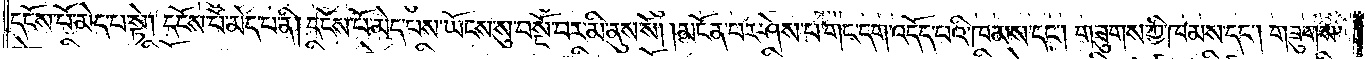དངོས་པོ་མེད་པ་སྟེ། དངོས་པོ་མེད་པ་ནི། དངོས་པོ་མེད་པས་ཡོངས་སུ་བསྔོ་བར་མི་ནུས་སོ། །མངོན་པར་ཤེས་པ་གང་དག་འདོད་པའི་ཁམས་དང༌། གཟུགས་ཀྱི་ཁམས་དང༌། གཟུགས་
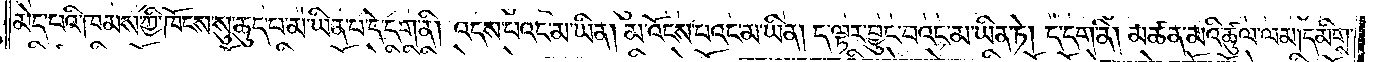མེད་པའི་ཁམས་ཀྱི་ཁོངས་སུ་ཆུད་པ་མ་ཡིན་པ་དེ་དག་ནི། འདས་པའང་མ་ཡིན། མ་འོངས་པའང་མ་ཡིན། ད་ལྟར་བྱུང་བའང་མ་ཡིན་ཏེ། དེ་དག་ནི། མཚན་མའི་ཚུལ་ལམ། དམིགས་
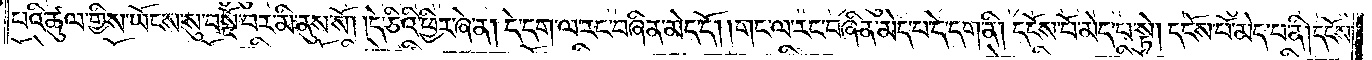པའི་ཚུལ་གྱིས་ཡོངས་སུ་བསྔོ་བར་མི་ནུས་སོ། །དེ་ཅིའི་ཕྱིར་ཞེ་ན། དེ་དག་ལ་རང་བཞིན་མེད་དོ། །གང་ལ་རང་བཞིན་མེད་པ་དེ་དག་ནི། དངོས་པོ་མེད་པ་སྟེ། དངོས་པོ་མེད་པ་ནི། དངོས་
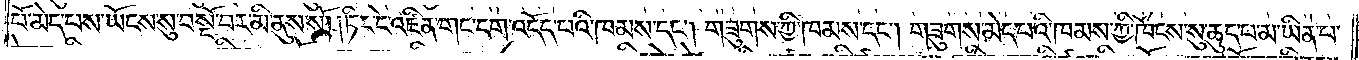པོ་མེད་པས་ཡོངས་སུ་བསྔོ་བར་མི་ནུས་སོ། །ཏིང་ངེ་འཛིན་གང་དག་འདོད་པའི་ཁམས་དང༌། གཟུགས་ཀྱི་ཁམས་དང༌། གཟུགས་མེད་པའི་ཁམས་ཀྱི་ཁོངས་སུ་ཆུད་པ་མ་ཡིན་པ་
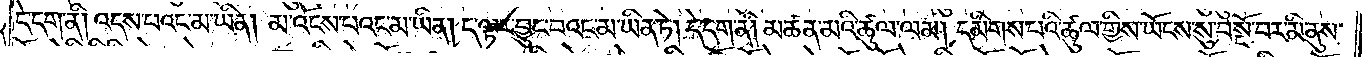དེ་དག་ནི། འདས་པའང་མ་ཡིན། མ་འོངས་པའང་མ་ཡིན། ད་ལྟར་བྱུང་བའང་མ་ཡིན་ཏེ། དེ་དག་ནི། མཚན་མའི་ཚུལ་ལམ། དམིགས་པའི་ཚུལ་གྱིས་ཡོངས་སུ་བསྔོ་བར་མི་ནུས་
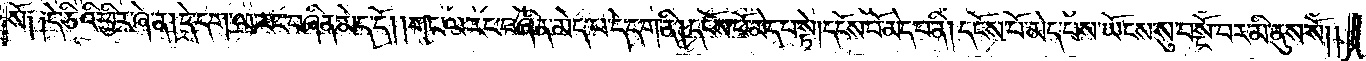སོ༑ ༑དེ་ཅིའི་ཕྱིར་ཞེ་ན། དེ་དག་ལ་རང་བཞིན་མེད་དོ། །གང་ལ་རང་བཞིན་མེད་པ་དེ་དག་ནི། དངོས་པོ་མེད་པ་སྟེ། དངོས་པོ་མེད་པ་ནི། དངོས་པོ་མེད་པས་ཡོངས་སུ་བསྔོ་བར་མི་ནུས་སོ། །
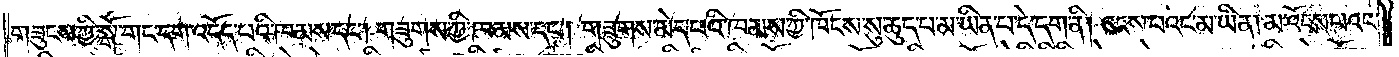གཟུངས་ཀྱི་སྒོ་གང་དག་འདོད་པའི་ཁམས་དང༌། གཟུགས་ཀྱི་ཁམས་དང༌། གཟུགས་མེད་པའི་ཁམས་ཀྱི་ཁོངས་སུ་ཆུད་པ་མ་ཡིན་པ་དེ་དག་ནི། འདས་པའང་མ་ཡིན། མ་འོངས་པའང་
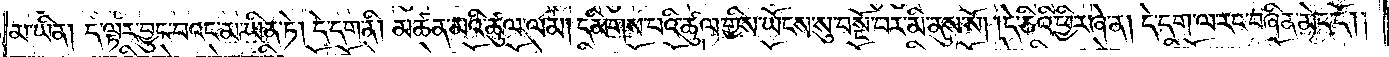མ་ཡིན། ད་ལྟར་བྱུང་བའང་མ་ཡིན་ཏེ། དེ་དག་ནི། མཚན་མའི་ཚུལ་ལམ། དམིགས་པའི་ཚུལ་གྱིས་ཡོངས་སུ་བསྔོ་བར་མི་ནུས་སོ། །དེ་ཅིའི་ཕྱིར་ཞེ་ན། དེ་དག་ལ་རང་བཞིན་མེད་དོ། །
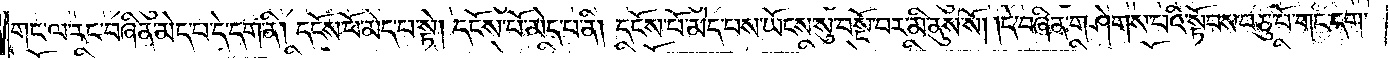གང་ལ་རང་བཞིན་མེད་པ་དེ་དག་ནི། དངོས་པོ་མེད་པ་སྟེ། དངོས་པོ་མེད་པ་ནི། དངོས་པོ་མེད་པས་ཡོངས་སུ་བསྔོ་བར་མི་ནུས་སོ། །དེ་བཞིན་གཤེགས་པའི་སྟོབས་བཅུ་པོ་གང་དག་
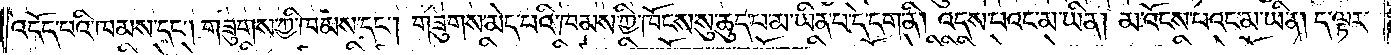འདོད་པའི་ཁམས་དང༌། གཟུགས་ཀྱི་ཁམས་དང༌། གཟུགས་མེད་པའི་ཁམས་ཀྱི་ཁོངས་སུ་ཆུད་པ་མ་ཡིན་པ་དེ་དག་ནི། འདས་པའང་མ་ཡིན། མ་འོངས་པའང་མ་ཡིན། ད་ལྟར་
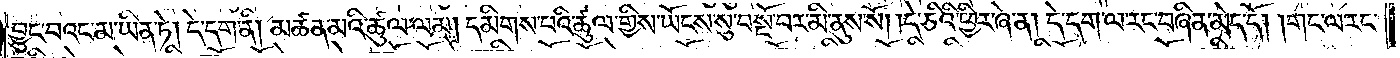བྱུང་བའང་མ་ཡིན་ཏེ། དེ་དག་ནི། མཚན་མའི་ཚུལ་ལམ། དམིགས་པའི་ཚུལ་གྱིས་ཡོངས་སུ་བསྔོ་བར་མི་ནུས་སོ། །དེ་ཅིའི་ཕྱིར་ཞེ་ན། དེ་དག་ལ་རང་བཞིན་མེད་དོ། །གང་ལ་རང་
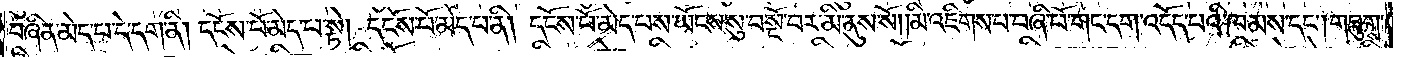བཞིན་མེད་པ་དེ་དག་ནི། དངོས་པོ་མེད་པ་སྟེ། དངོས་པོ་མེད་པ་ནི། དངོས་པོ་མེད་པས་ཡོངས་སུ་བསྔོ་བར་མི་ནུས་སོ། །མི་འཇིགས་པ་བཞི་པོ་གང་དག་འདོད་པའི་ཁམས་དང༌། གཟུགས་
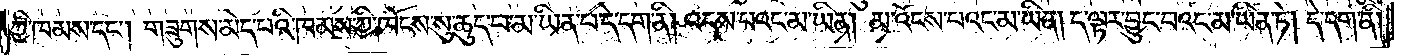ཀྱི་ཁམས་དང༌། གཟུགས་མེད་པའི་ཁམས་ཀྱི་ཁོངས་སུ་ཆུད་པ་མ་ཡིན་པ་དེ་དག་ནི། འདས་པའང་མ་ཡིན། མ་འོངས་པའང་མ་ཡིན། ད་ལྟར་བྱུང་བའང་མ་ཡིན་ཏེ། དེ་དག་ནི།
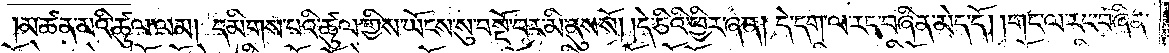མཚན་མའི་ཚུལ་ལམ། དམིགས་པའི་ཚུལ་གྱིས་ཡོངས་སུ་བསྔོ་བར་མི་ནུས་སོ། །དེ་ཅིའི་ཕྱིར་ཞེ་ན། དེ་དག་ལ་རང་བཞིན་མེད་དོ། །གང་ལ་རང་བཞིན་
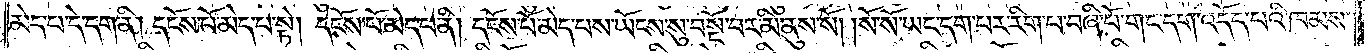མེད་པ་དེ་དག་ནི། དངོས་པོ་མེད་པ་སྟེ། དངོས་པོ་མེད་པ་ནི། དངོས་པོ་མེད་པས་ཡོངས་སུ་བསྔོ་བར་མི་ནུས་སོ། །སོ་སོ་ཡང་དག་པར་རིག་པ་བཞི་པོ་གང་དག་འདོད་པའི་ཁམས་
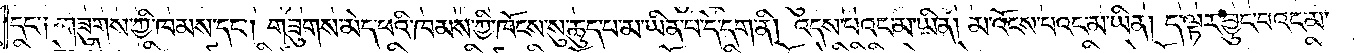དང་༑ གཟུགས་ཀྱི་ཁམས་དང༌། གཟུགས་མེད་པའི་ཁམས་ཀྱི་ཁོངས་སུ་ཆུད་པ་མ་ཡིན་པ་དེ་དག་ནི། འདས་པའང་མ་ཡིན། མ་འོངས་པའང་མ་ཡིན། ད་ལྟར་བྱུང་བའང་མ་
